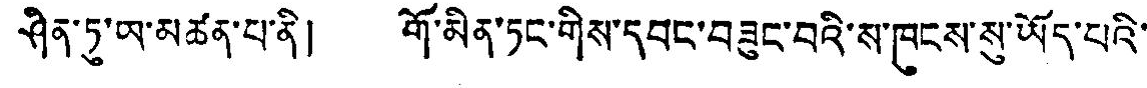ཤིན་ཏུ་ཡ་མཚན་པ་ནི། གོ་མིན་ཏང་གིས་དབང་བཟུང་བའི་ས་ཁུངས་སུ་ཡོད་པའི་
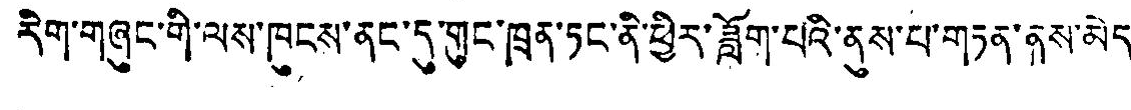རིག་གཞུང་གི་ལས་ཁུངས་ནང་དུ་གུང་ཁྲན་ཏང་ནི་ཕྱིར་ཟློག་པའི་ནུས་པ་གཏན་ནས་མེད་
